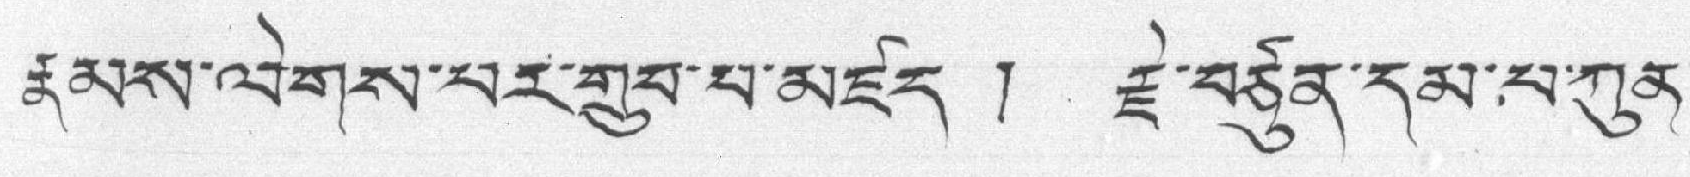རྣམས་ལེགས་པར་གྲུབ་བ་མཛད ། རྗེ་བཙུན་དམ་པ་ཀུན་
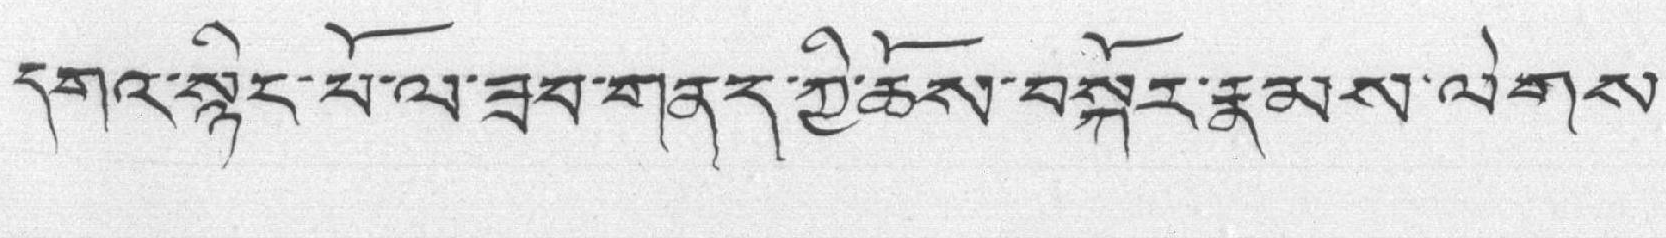དགའ་སྙིང་པོ་ལ་ཟབ་གནད་ཀྱི་ཆོས་བསྐོར་རྣམས་ལེགས་
